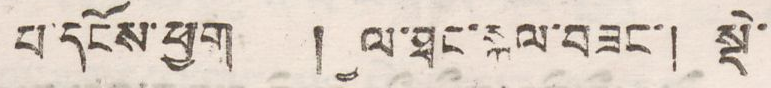པ་དངོས་ཕྱག །རྒྱལ་ཐང་སྐལ་བཟང་། སྡེ་
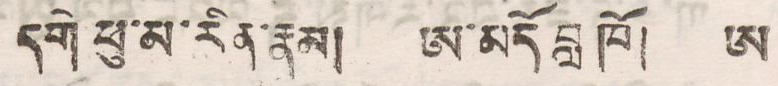དགེ ཕུ་མ་རིན་རྣམ། ཨ་མདོ བླ ཁོ། ཨ
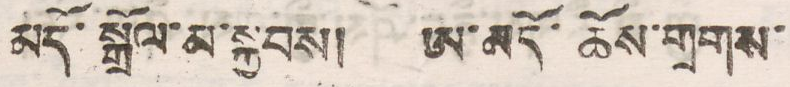མདོ་སྒྲོལ་མ་སྐྱབས། ཨ་མདོ་ཆོས་གྲགས་
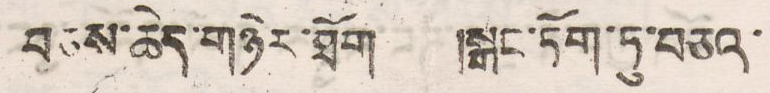བཅས་ཆེད་གཉེར་ཐོག །སྒང་ཏོག་ཏུ་བཅའ་
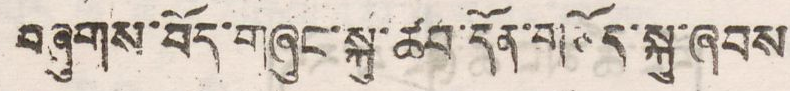བཞུགས་བོད་གཞུང་སྐུ་ཚབ་དོན་གཅོད་སྐུ་ཞབས
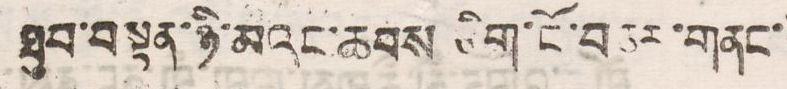ཐུབ་བསྟན་ཉི་མའང་ཆབས ཅིག་ངོ་བཅར་གནང་
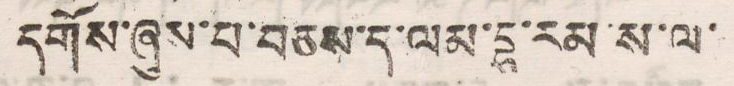དགོས་ཞུས་པ་བཅས་ད་ལམ་དྷ་རམ་ས་ལ་
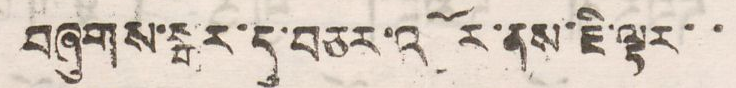བཞུགས་སྒར་དུ་བཅར་འབྱོར་ནས་ཇི་ལྟར་་
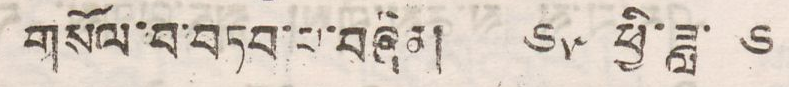གསོལ་བ་བཏབ་པ་བཞིན། ༦༥ ཕྱི་ཟླ་ ༦
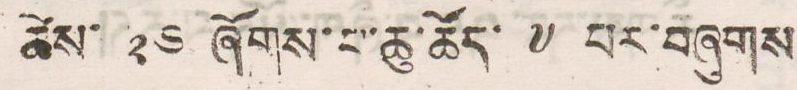ཚེས་ ༢༦ ཞོགས་པ་ཆུ་ཚོད་ ༧ པར་བཞུགས
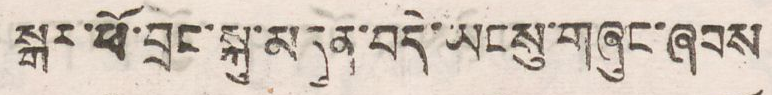སྒར་ཕོ་བྲང་སྐུ་མདུན་བདེ་ཡངསུ་གཞུང་ཞབས
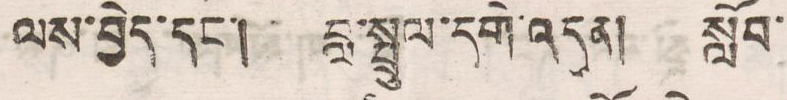ལས་བྱེད་དང་། བླ་སྤྲུལ་དགེ་འདུན། སློབ་
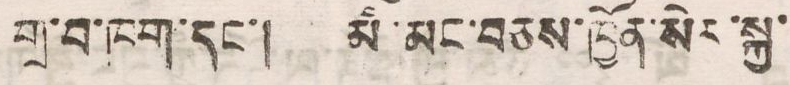གྲ་བ་ཁག་དང་། མི་མང་བཅས་ཁྱོན་སེར་སྐྱ་
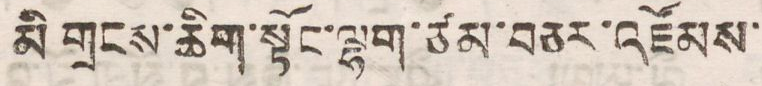མི གྲངས་ཆིག་སྟོང་ལྷག་ཙམ་བཅར་འཛོམས་
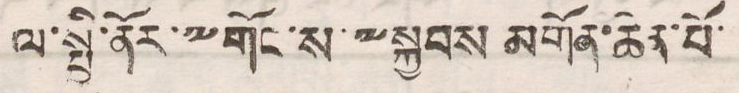ལ་སྤྱི་ནོར་༸གོང་ས་༸སྐྱབས མགོན་ཆེན་པོ་
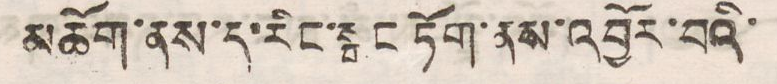མཆོག་ནས་ད་རིང་སྒང་ཏོག་ནས་འབྱོར་བའི་
